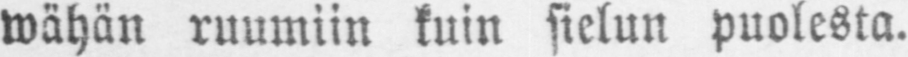wähän ruumiin kuin sielun puolesta.
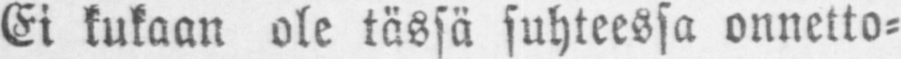Ei kukaan ole tässä suhteessa onnetto-
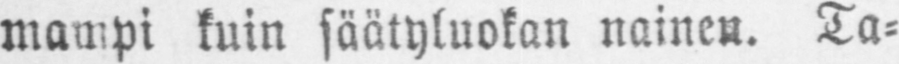mampi kuin säätyluokan naine». Ta-
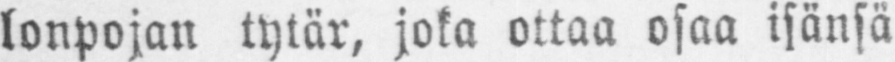lonpojan tytär, joka ottaa osaa isänsä
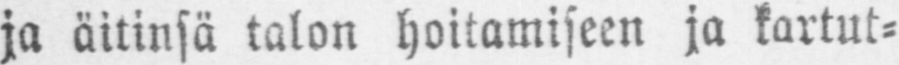ja äitinsä talon hoitamiseen ja kartut-
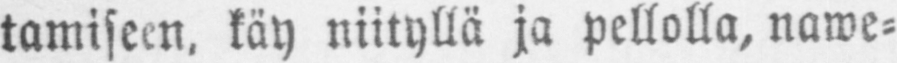tamiseen. käy niityllä ja pellolla, nawe-
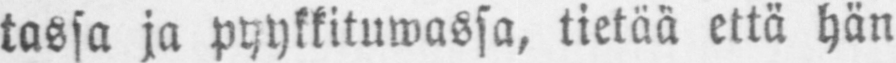tassa ja pyykkituwassa, tietää että hän
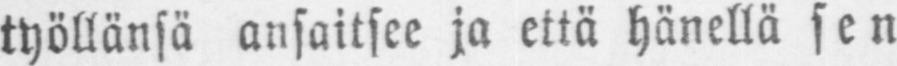työllänsä ansaitsee ja että hänellä sen
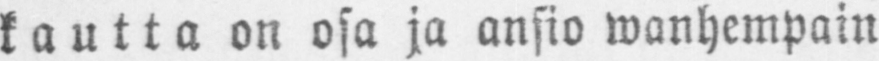kautta on osa ja ansio wanhempain
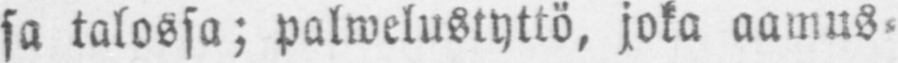sa talossa; palwelustyttö, joka aamus-
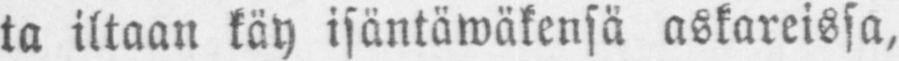ta iltaan käy isäntäwäkensä askareissa,
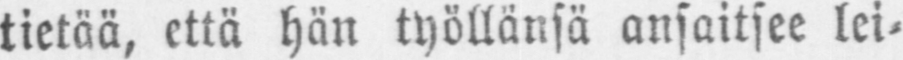tietää, että hän työllänsä ansaitsee lei-
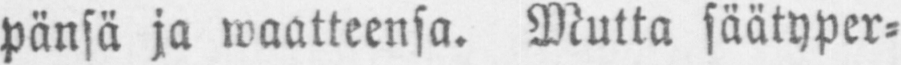pänsä ja vaatteensa. Mutta säätyper-
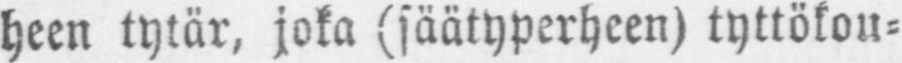heen tytär, joka (säätyperheen) tyttökou-
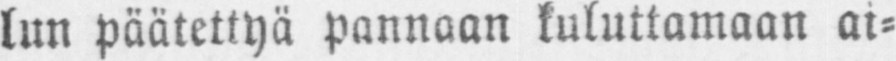lun päätettyä pannaan kuluttamaan ai-
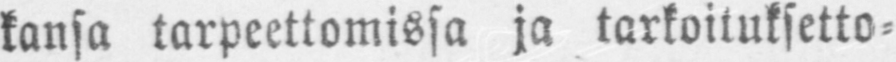kansa tarpeettomissa ja tarkoituksetto-
